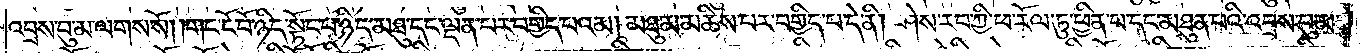འབྲས་བུ་མ་ལགས་སོ། །གང་ངོ་བོ་ཉིད་སྟོང་པ་ཉིད་མཐུ་དང་ལྡན་པར་བགྱིད་པའམ། མཐུ་མ་མཆིས་པར་བགྱིད་པ་དེ་ནི། ཤེས་རབ་ཀྱི་ཕ་རོལ་ཏུ་ཕྱིན་པ་དང་མཐུན་པའི་འབྲས་བུ་མ་
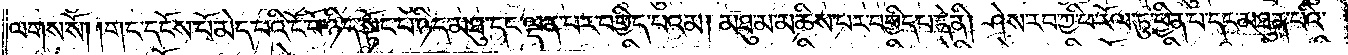ལགས་སོ། །གང་དངོས་པོ་མེད་པའི་ངོ་བོ་ཉིད་སྟོང་པ་ཉིད་མཐུ་དང་ལྡན་པར་བགྱིད་པའམ། མཐུ་མ་མཆིས་པར་བགྱིད་པ་དེ་ནི། ཤེས་རབ་ཀྱི་ཕ་རོལ་ཏུ་ཕྱིན་པ་དང་མཐུན་པའི་
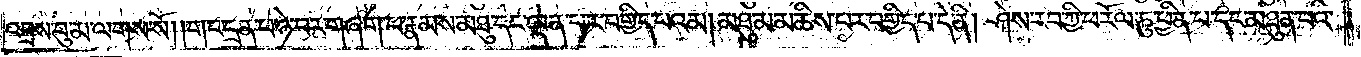འབྲས་བུ་མ་ལགས་སོ། །གང་དྲན་པ་ཉེ་བར་གཞག་པ་རྣམས་མཐུ་དང་ལྡན་པར་བགྱིད་པའམ། མཐུ་མ་མཆིས་པར་བགྱིད་པ་དེ་ནི། ཤེས་རབ་ཀྱི་ཕ་རོལ་ཏུ་ཕྱིན་པ་དང་མཐུན་པའི་
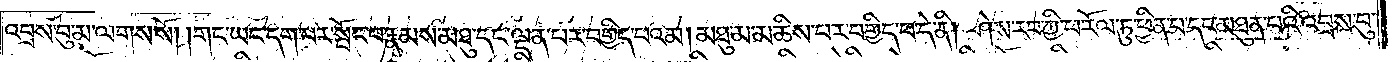འབྲས་བུ་མ་ལགས་སོ། །གང་ཡང་དག་པར་སྤོང་བ་རྣམས་མཐུ་དང་ལྡན་པར་བགྱིད་པའམ། མཐུ་མ་མཆིས་པར་བགྱིད་པ་དེ་ནི། ཤེས་རབ་ཀྱི་ཕ་རོལ་ཏུ་ཕྱིན་པ་དང་མཐུན་པའི་འབྲས་བུ་
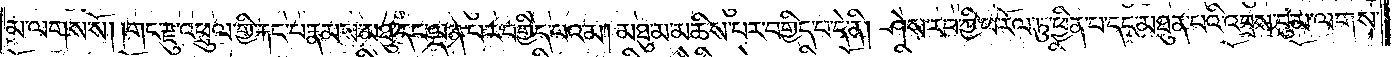མ་ལགས་སོ། །གང་རྫུ་འཕྲུལ་གྱི་རྐང་པ་རྣམས་མཐུ་དང་ལྡན་པར་བགྱིད་པའམ། མཐུ་མ་མཆིས་པར་བགྱིད་པ་དེ་ནི། ཤེས་རབ་ཀྱི་ཕ་རོལ་ཏུ་ཕྱིན་པ་དང་མཐུན་པའི་འབྲས་བུ་མ་ལགས་
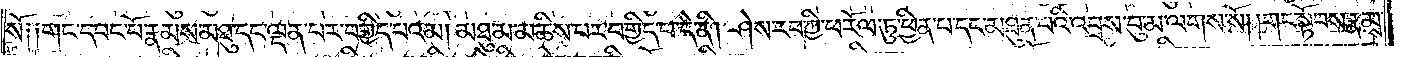སོ༑ ༑གང་དབང་པོ་རྣམས་མཐུ་དང་ལྡན་པར་བགྱིད་པའམ། མཐུ་མ་མཆིས་པར་བགྱིད་པ་དེ་ནི། ཤེས་རབ་ཀྱི་ཕ་རོལ་ཏུ་ཕྱིན་པ་དང་མཐུན་པའི་འབྲས་བུ་མ་ལགས་སོ། །གང་སྟོབས་རྣམས་
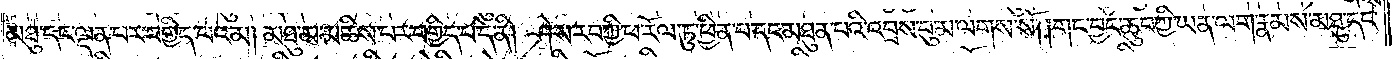མཐུ་དང་ལྡན་པར་བགྱིད་པའམ། མཐུ་མ་མཆིས་པར་བགྱིད་པ་དེ་ནི། ཤེས་རབ་ཀྱི་ཕ་རོལ་ཏུ་ཕྱིན་པ་དང་མཐུན་པའི་འབྲས་བུ་མ་ལགས་སོ། །གང་བྱང་ཆུབ་ཀྱི་ཡན་ལག་རྣམས་མཐུ་དང་
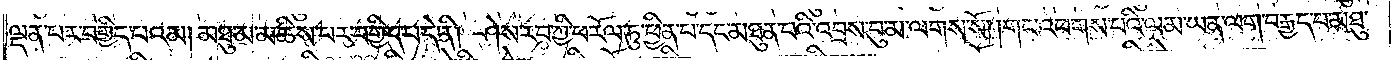ལྡན་པར་བགྱིད་པའམ། མཐུ་མ་མཆིས་པར་བགྱིད་པ་དེ་ནི། ཤེས་རབ་ཀྱི་ཕ་རོལ་ཏུ་ཕྱིན་པ་དང་མཐུན་པའི་འབྲས་བུ་མ་ལགས་སོ། །གང་འཕགས་པའི་ལམ་ཡན་ལག་བརྒྱད་པ་མཐུ་
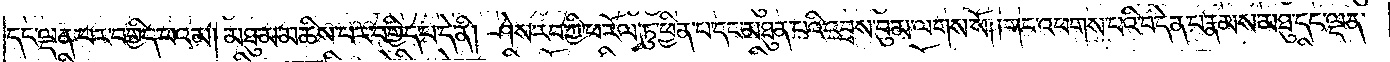དང་ལྡན་པར་བགྱིད་པའམ། མཐུ་མ་མཆིས་པར་བགྱིད་པ་དེ་ནི། ཤེས་རབ་ཀྱི་ཕ་རོལ་ཏུ་ཕྱིན་པ་དང་མཐུན་པའི་འབྲས་བུ་མ་ལགས་སོ། །གང་འཕགས་པའི་བདེན་པ་རྣམས་མཐུ་དང་ལྡན་
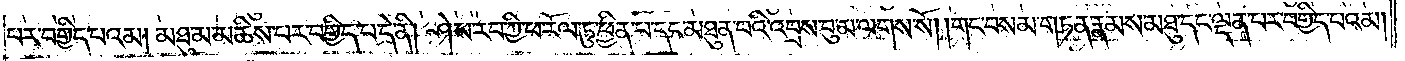པར་བགྱིད་པའམ། མཐུ་མ་མཆིས་པར་བགྱིད་པ་དེ་ནི། ཤེས་རབ་ཀྱི་ཕ་རོལ་ཏུ་ཕྱིན་པ་དང་མཐུན་པའི་འབྲས་བུ་མ་ལགས་སོ། །གང་བསམ་གཏན་རྣམས་མཐུ་དང་ལྡན་པར་བགྱིད་པའམ།
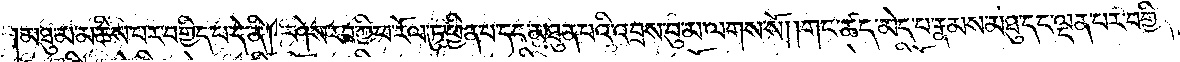མཐུ་མ་མཆིས་པར་བགྱིད་པ་དེ་ནི། ཤེས་རབ་ཀྱི་ཕ་རོལ་ཏུ་ཕྱིན་པ་དང་མཐུན་པའི་འབྲས་བུ་མ་ལགས་སོ། །གང་ཚད་མེད་པ་རྣམས་མཐུ་དང་ལྡན་པར་བགྱིད་
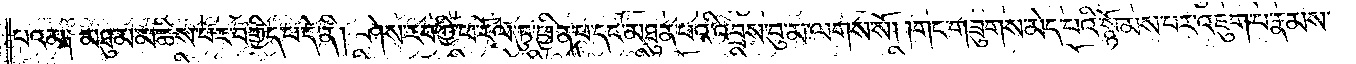པའམ༑ མཐུ་མ་མཆིས་པར་བགྱིད་པ་དེ་ནི། ཤེས་རབ་ཀྱི་ཕ་རོལ་ཏུ་ཕྱིན་པ་དང་མཐུན་པའི་འབྲས་བུ་མ་ལགས་སོ། །གང་གཟུགས་མེད་པའི་སྙོམས་པར་འཇུག་པ་རྣམས་
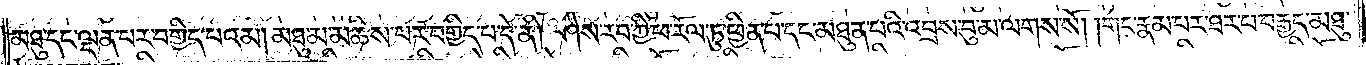མཐུ་དང་ལྡན་པར་བགྱིད་པའམ། མཐུ་མ་མཆིས་པར་བགྱིད་པ་དེ་ནི། ཤེས་རབ་ཀྱི་ཕ་རོལ་ཏུ་ཕྱིན་པ་དང་མཐུན་པའི་འབྲས་བུ་མ་ལགས་སོ། །གང་རྣམ་པར་ཐར་པ་བརྒྱད་མཐུ་
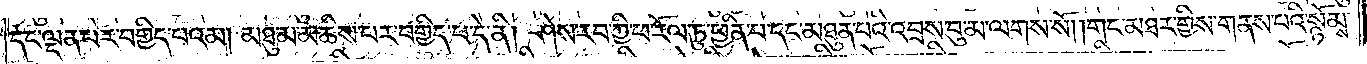དང་ལྡན་པར་བགྱིད་པའམ། མཐུ་མ་མཆིས་པར་བགྱིད་པ་དེ་ནི། ཤེས་རབ་ཀྱི་ཕ་རོལ་ཏུ་ཕྱིན་པ་དང་མཐུན་པའི་འབྲས་བུ་མ་ལགས་སོ། །གང་མཐར་གྱིས་གནས་པའི་སྙོམས་
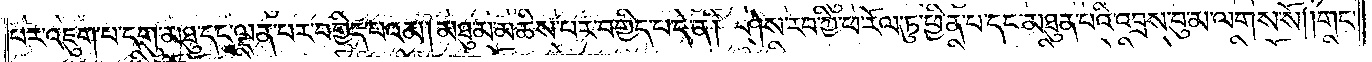པར་འཇུག་པ་དགུ་མཐུ་དང་ལྡན་པར་བགྱིད་པའམ། མཐུ་མ་མཆིས་པར་བགྱིད་པ་དེ་ནི། ཤེས་རབ་ཀྱི་ཕ་རོལ་ཏུ་ཕྱིན་པ་དང་མཐུན་པའི་འབྲས་བུ་མ་ལགས་སོ། །གང་
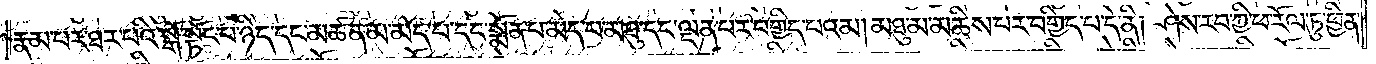རྣམ་པར་ཐར་པའི་སྒོ་སྟོང་པ་ཉིད་དང་མཚན་མ་མེད་པ་དང་སྨོན་པ་མེད་པ་མཐུ་དང་ལྡན་པར་བགྱིད་པའམ། མཐུ་མ་མཆིས་པར་བགྱིད་པ་དེ་ནི། ཤེས་རབ་ཀྱི་ཕ་རོལ་ཏུ་ཕྱིན་
